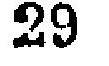29
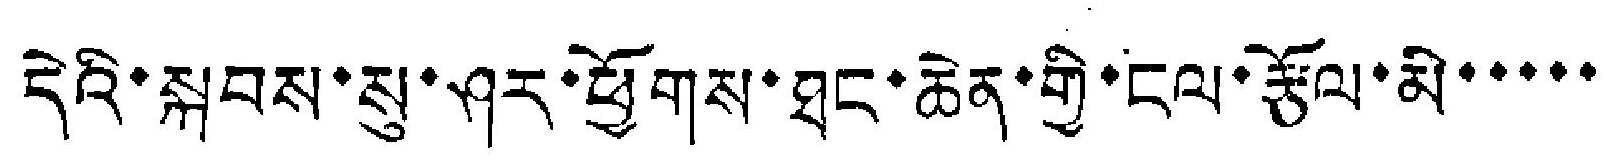དེའི་སྐབས་སུ་ཤར་ཕྱོགས་ཐང་ཆེན་གྱི་ངལ་རྩོལ་མི་་་་་
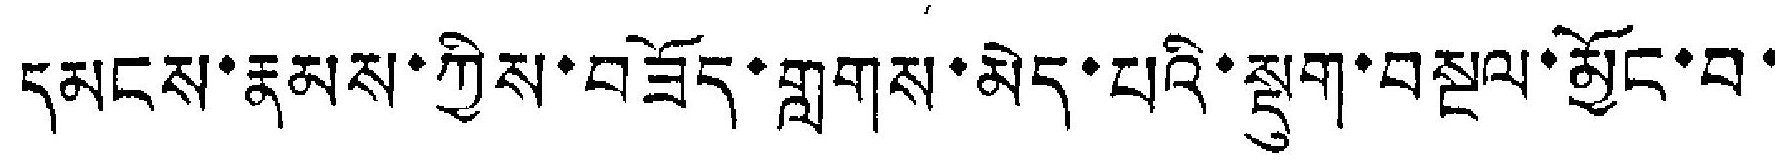དམངས་རྣམས་ཀྱིས་བཟོད་གླགས་མེད་པའི་སྡུག་བསྔལ་མྱོང་བ་
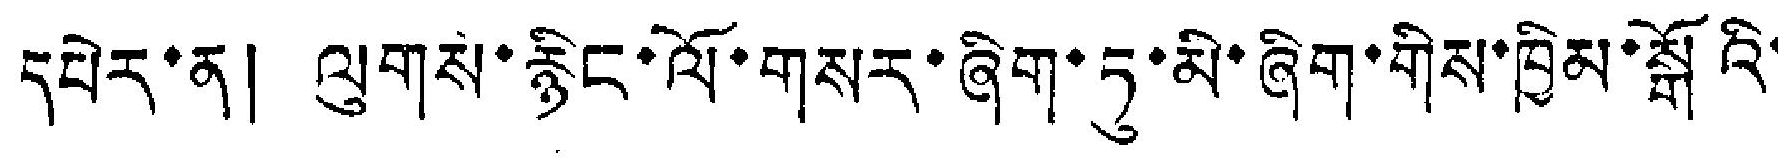དཔེར་ན། ལུགས་རྙིང་ལོ་གསར་ཞིག་ཏུ་མི་ཞིག་གིས་ཁྱིམ་སྒོའི་
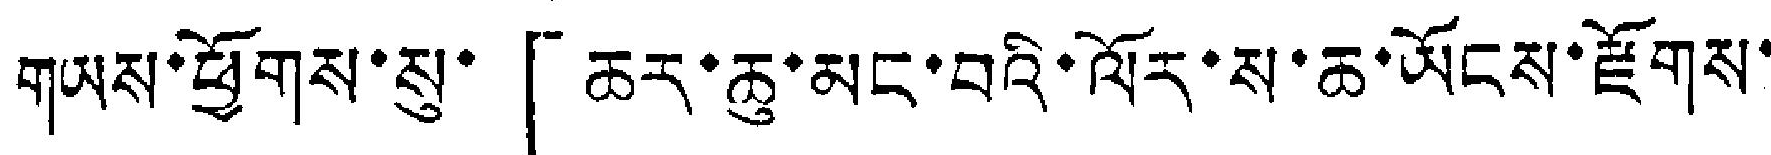གཡས་ཕྱོགས་སུ་「ཆར་ཆུ་མང་བའི་ལོར་ས་ཆ་ཡོངས་རྫོགས་
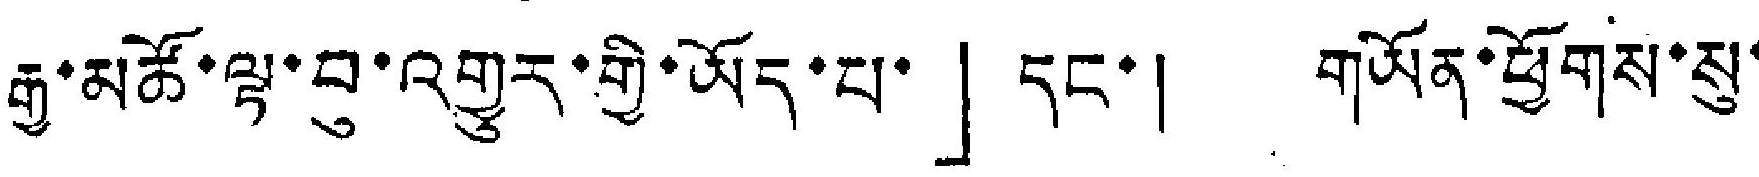རྒྱ་མཚོ་ལྟ་བུ་འགྱུར་གྱི་ཡོད་པ་」དང་། གཡོན་ཕྱོགས་སུ་
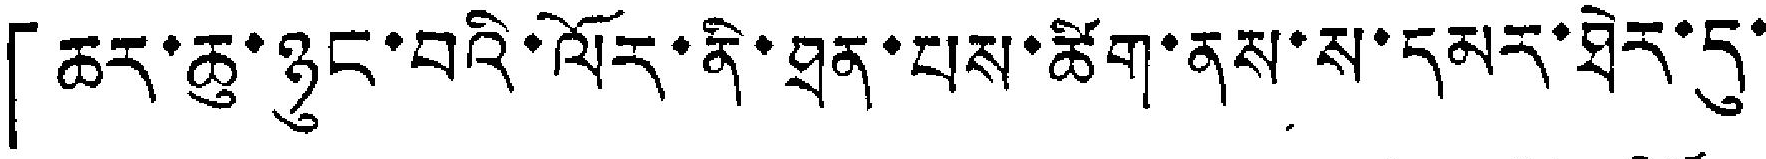「ཆར་ཆུ་ཉུང་བའི་ལོར་ནི་ཐན་པས་ཚིག་ནས་ས་དམར་ཐེར་དུ་
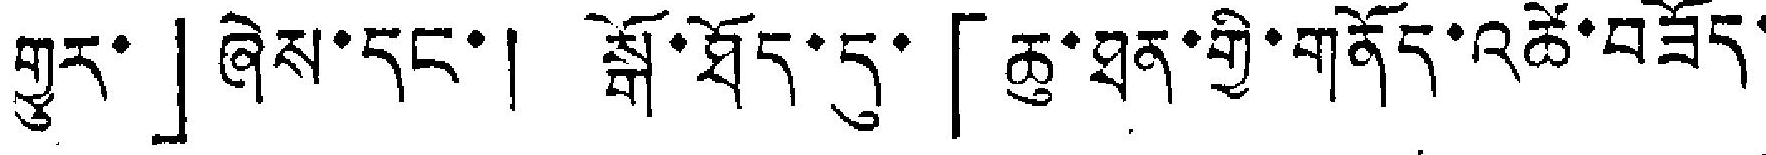གྱུར་」ཞེས་དང་། སྒོ་ཐོད་དུ་「ཆུ་ཐན་གྱི་གནོད་འཚེ་བཟོད་
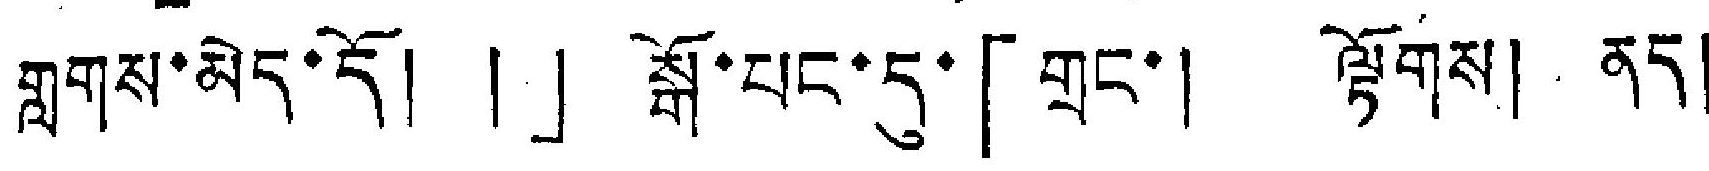བླགས་མེད་དོ། །」 སྒོ་པང་དུ་「གྲང་། ལྟོགས། ནད།」
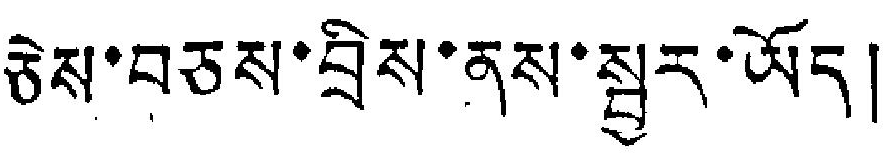ཅེས་བཅས་བྲིས་ནས་སྦྱར་ཡོད།
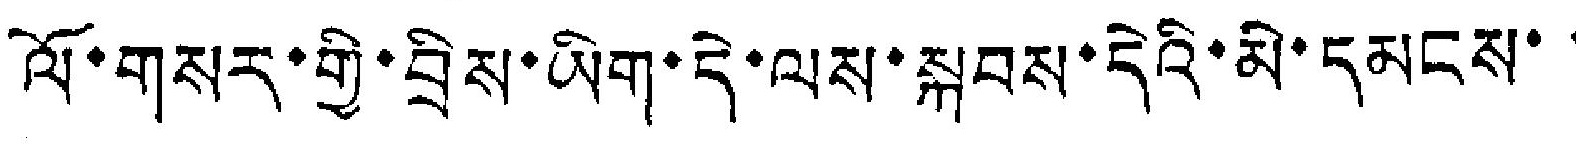ལོ་གསར་གྱི་བྲིས་ཡིག་དེ་ལས་སྐབས་དེའི་མི་དམངས་་
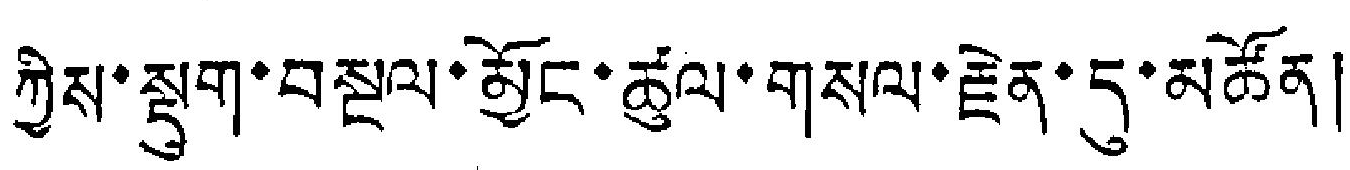ཀྱིས་སྡུག་བསྔལ་མྱོང་ཚུལ་གསལ་རྗེན་དུ་མཚོན།
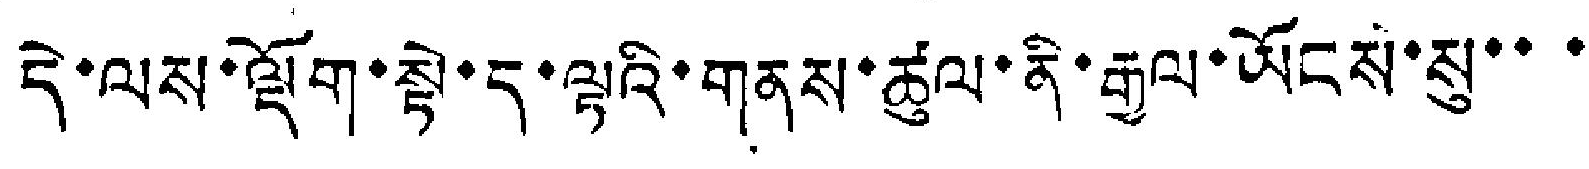དེ་ལས་ལྡོག་སྟེ་ད་ལྟའི་གནས་ཚུལ་ནི་རྒྱལ་ཡོངས་སུ་་་
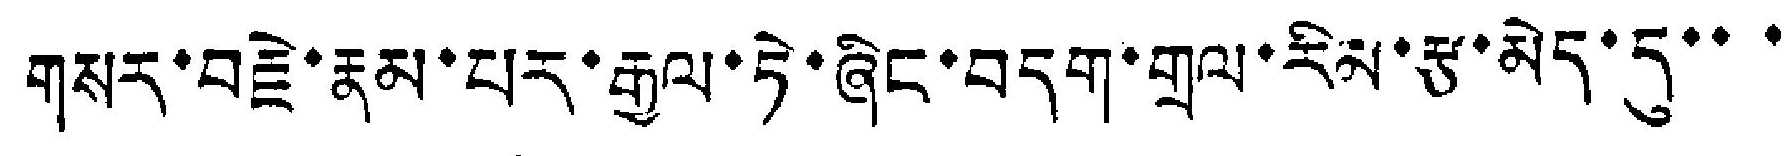གསར་བརྗེ་རྣམ་པར་རྒྱལ་ཏེ་ཞིང་བདག་གྲལ་རིམ་རྩ་མེད་དུ་་་
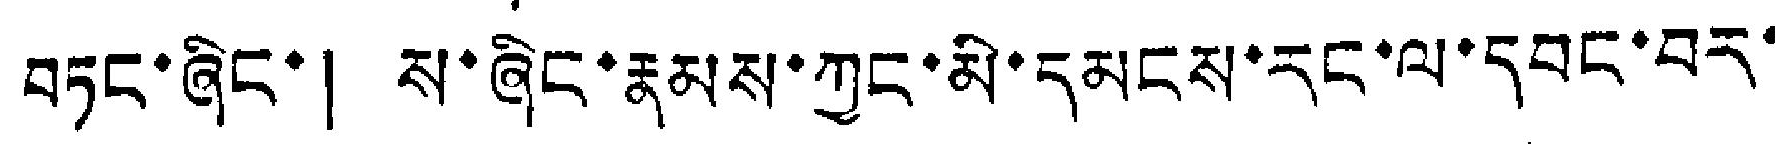བཏང་ཞིང་། ས་ཞིང་རྣམས་ཀྱང་མི་དམངས་རང་ལ་དབང་བར་
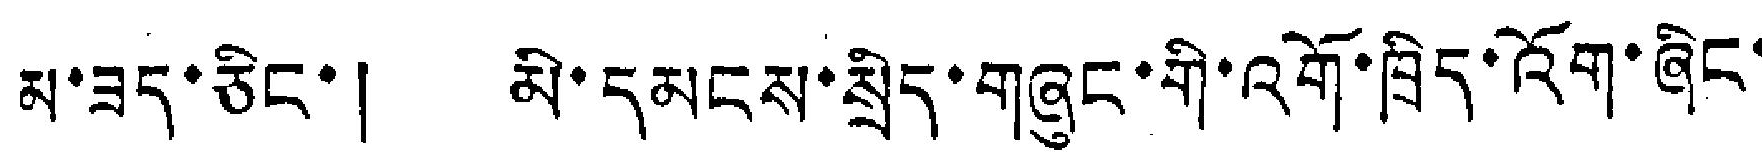མ་ཟད་ཅིང་། མི་དམངས་སྲིད་གཞུང་གི་འགོ་ཁྲིད་འོག་ཞིང་
